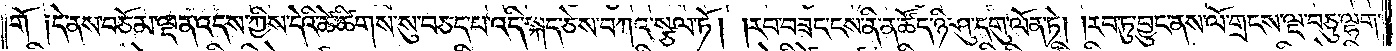གོ  ༑དེ་ནས་བཅོམ་ལྡན་འདས་ཀྱིས་དེའི་ཚེ་ཚིགས་སུ་བཅད་པ་འདི་སྐད་ཅེས་བཀའ་སྩལ་ཏོ། །རབ་བཟང་ངས་ནི་ན་ཚོད་ཉི་ཤུ་དགུ་ལོན་ཏེ། །རབ་ཏུ་བྱུང་ནས་ལོ་གྲངས་ལྔ་བཅུ་ལྷག་
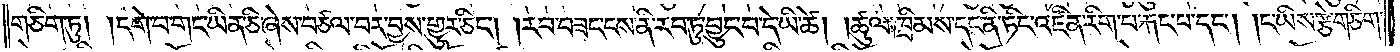གཅིག་ཏུ། །དགེ་བ་གང་ཡིན་ཅི་ཞེས་བཙལ་བར་བྱས་གྱུར་ཅིང༌། །རབ་བཟང་ངས་ནི་རབ་ཏུ་བྱུང་བ་དེ་ཡི་ཚེ། །ཚུལ་ཁྲིམས་དང་ནི་ཏིང་འཛིན་རིག་པ་རྐང་པ་དང༌། །ང་ཡིས་རྩེ་གཅིག་
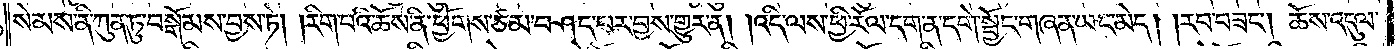སེམས་ནི་ཀུན་ཏུ་བསྒོམས་བྱས་ཏེ། །རིག་པའི་ཆོས་ནི་ཕྱོགས་ཙམ་བཤད་པར་བྱས་གྱུར་ན། །འདི་ལས་ཕྱི་རོལ་དག་ན་དགེ་སྦྱོང་གཞན་ཡང་མེད། །རབ་བཟང༌། ཆོས་འདུལ་
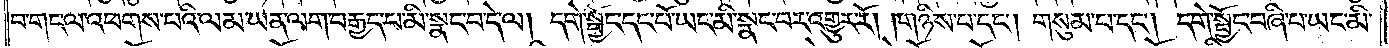བ་གང་ལ་འཕགས་པའི་ལམ་ཡན་ལག་བརྒྱད་པ་མི་སྣང་བ་དེ་ལ། དགེ་སྦྱོང་དང་པོ་ཡང་མི་སྣང་བར་འགྱུར་རོ། །གཉིས་པ་དང༌། གསུམ་པ་དང༌། དགེ་སྦྱོང་བཞི་པ་ཡང་མི་
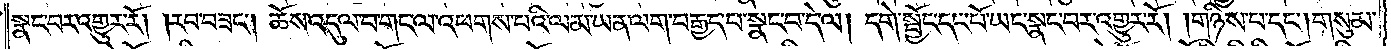སྣང་བར་འགྱུར་རོ། །རབ་བཟང༌། ཆོས་འདུལ་བ་གང་ལ་འཕགས་པའི་ལམ་ཡན་ལག་བརྒྱད་པ་སྣང་བ་དེ་ལ། དགེ་སྦྱོང་དང་པོ་ཡང་སྣང་བར་འགྱུར་རོ། །གཉིས་པ་དང༌། གསུམ་
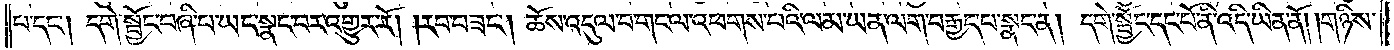པ་དང༌། དགེ་སྦྱོང་བཞི་པ་ཡང་སྣང་བར་འགྱུར་རོ། །རབ་བཟང༌། ཆོས་འདུལ་བ་གང་ལ་འཕགས་པའི་ལམ་ཡན་ལག་བརྒྱད་པ་སྣང་ན། དགེ་སྦྱོང་དང་པོ་ནི་འདི་ཡིན་ནོ། །གཉིས་
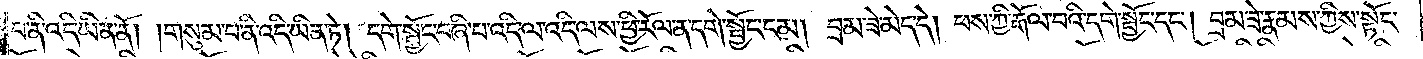པ་ནི་འདི་ཡིན་ནོ། །གསུམ་པ་ནི་འདི་ཡིན་ཏེ། དགེ་སྦྱོང་བཞི་པ་འདི་ལ་འདི་ལས་ཕྱི་རོལ་ན་དགེ་སྦྱོང་ངམ། བྲམ་ཟེ་མེད་དེ། ཕས་ཀྱི་རྒོལ་བའི་དགེ་སྦྱོང་དང༌། བྲམ་ཟེ་རྣམས་ཀྱིས་སྟོང་
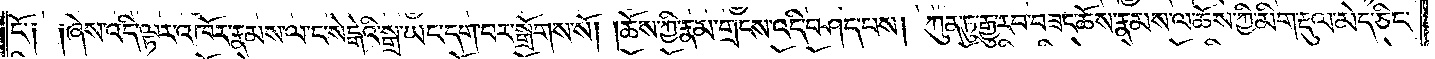ངོ༑ ༑ཞེས་འདི་ལྟར་འཁོར་རྣམས་ལ་ང་སེངྒེའི་སྒྲ་ཡང་དག་པར་སྒྲོགས་སོ། །ཆོས་ཀྱི་རྣམ་གྲངས་འདི་བཤད་པས། ཀུན་ཏུ་རྒྱུ་རབ་བཟང་ཆོས་རྣམས་ལ་ཆོས་ཀྱི་མིག་རྡུལ་མེད་ཅིང་
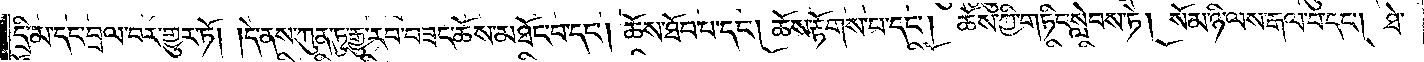དྲི་མ་དང་བྲལ་བར་གྱུར་ཏོ། །དེ་ནས་ཀུན་ཏུ་རྒྱུ་རབ་བཟང་ཆོས་མཐོང་བ་དང༌། ཆོས་ཐོབ་པ་དང༌། ཆོས་རྟོགས་པ་དང༌། ཆོས་ཀྱི་གཏིང་སླེབས་ཏེ། སོམ་ཉི་ལས་རྒལ་བ་དང༌། ཐེ་
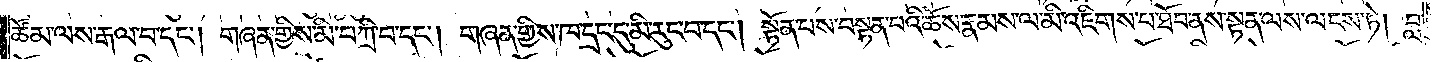ཚོམ་ལས་རྒལ་བ་དང༌། གཞན་གྱིས་མི་བཀྲི་བ་དང༌། གཞན་གྱིས་ཁ་དྲང་དུ་མི་རུང་བ་དང༌། སྟོན་པས་བསྟན་པའི་ཆོས་རྣམས་ལ་མི་འཇིགས་པ་ཐོབ་ནས་སྟན་ལས་ལངས་ཏེ། བླ་
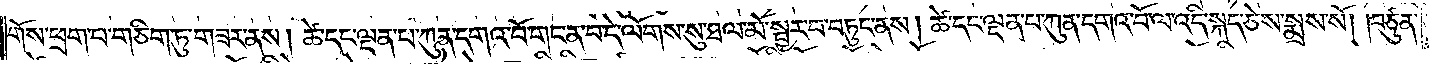གོས་ཕྲག་པ་གཅིག་ཏུ་གཟར་ནས། ཚེ་དང་ལྡན་པ་ཀུན་དགའ་བོ་གང་ན་བ་དེ་ལོགས་སུ་ཐལ་མོ་སྦྱར་བ་བཏུང་ནས། ཚེ་དང་ལྡན་པ་ཀུན་དགའ་བོ་ལ་འདི་སྐད་ཅེས་སྨྲས་སོ། །བཙུན་
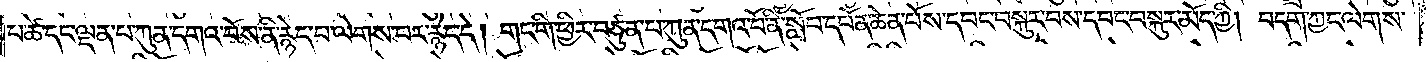པ་ཚེ་དང་ལྡན་པ་ཀུན་དགའ་བོས་ནི་རྙེད་པ་ལེགས་པར་རྙེད་དེ། གང་གི་ཕྱིར་བཙུན་པ་ཀུན་དགའ་བོ་ནི་སློབ་དཔོན་ཆེན་པོས་དབང་བསྐུར་བས་དབང་བསྐུར་མོད་ཀྱི། བདག་ཀྱང་ལེགས་
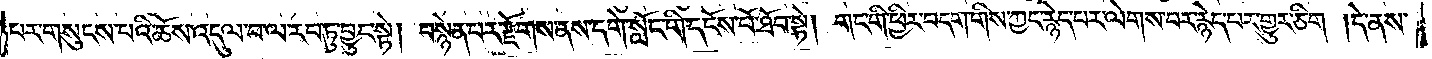པར་གསུངས་པའི་ཆོས་འདུལ་བ་ལ་རབ་ཏུ་བྱུང་སྟེ། བསྙེན་པར་རྫོགས་ནས་དགེ་སློང་གི་དངོས་པོ་ཐོབ་སྟེ། གང་གི་ཕྱིར་བདག་གིས་ཀྱང་རྙེད་པར་ལེགས་པར་རྙེད་པར་གྱུར་ཅིག། དེ་ནས་
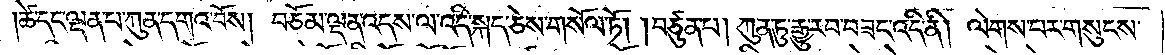ཚེ་དང་ལྡན་པ་ཀུན་དགའ་བོས། བཅོམ་ལྡན་འདས་ལ་འདི་སྐད་ཅེས་གསོལ་ཏོ། །བཙུན་པ། ཀུན་ཏུ་རྒྱུ་རབ་བཟང་འདི་ནི། ལེགས་པར་གསུངས་
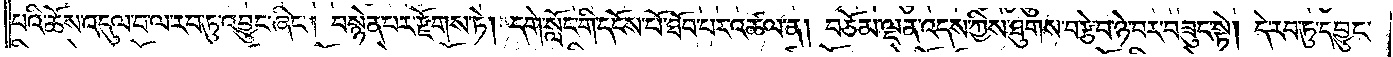པའི་ཆོས་འདུལ་བ་ལ་རབ་ཏུ་འབྱུང་ཞིང༌། བསྙེན་པར་རྫོགས་ཏེ། དགེ་སློང་གི་དངོས་པོ་ཐོབ་པར་འཚལ་ན། བཅོམ་ལྡན་འདས་ཀྱིས་ཐུགས་བརྩེ་བ་ཉེ་བར་བཟུང་སྟེ། དེ་རབ་ཏུ་དབྱུང་
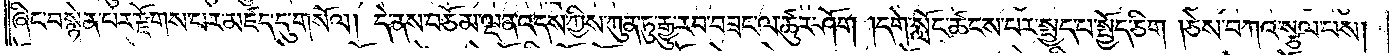ཞིང་བསྙེན་པར་རྫོགས་པར་མཛད་དུ་གསོལ། དེ་ནས་བཅོམ་ལྡན་འདས་ཀྱིས་ཀུན་ཏུ་རྒྱུ་རབ་བཟང་ལ་ཚུར་ཤོག །དགེ་སློང་ཚངས་པར་སྤྱད་པ་སྤྱོད་ཅིག །ཅེས་བཀའ་སྩལ་པས།
